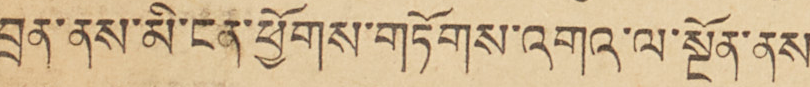བྲན་ནས་མི་ངན་ཕྱོགས་གཏོགས་འགའ་ལ་སྔོན་ནས་
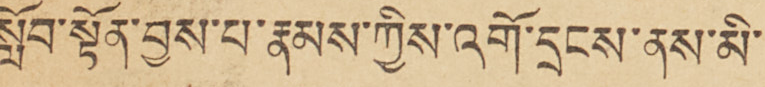སློབ་སྟོན་བྱས་པ་རྣམས་ཀྱིས་འགོ་དྲངས་ནས་མི་
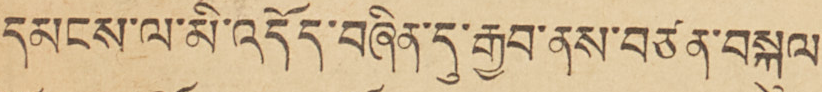དམངས་ལ་མི་འདོད་བཞིན་དུ་རྒྱབ་ནས་བཙན་བསྐུལ་
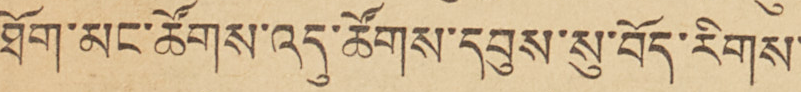ཐོག་མང་ཚོགས་འདུ་ཚོགས་དབུས་སུ་བོད་རིགས་
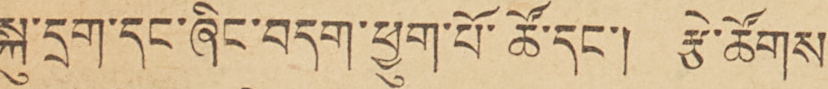སྐུ་དྲག་དང་ཞིང་བདག་ཕྱུག་པོ་ཚོ་དང། རྩེ་ཚོགས་
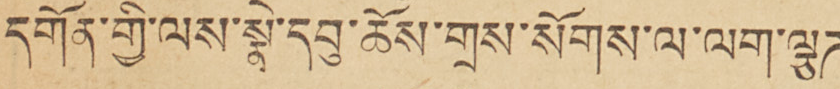དགོན་གྱི་ལས་སྣེ་དབུ་ཆོས་གྲས་སོགས་ལ་ལག་ལྕཊ་
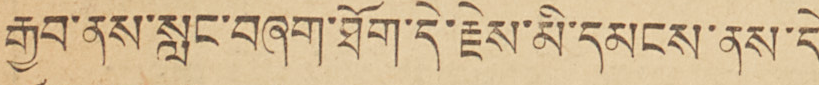རྒྱབ་ནས་སླང་བཞག་ཐོག་དེ་རྗེས་མི་དམངས་ནས་དེ་
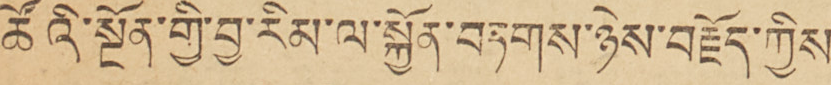ཚོའི་སྔོན་གྱི་བྱ་རིམ་ལ་སྐྱོན་བཏགས་ཉེས་བརྗོད་ཀྱིས་
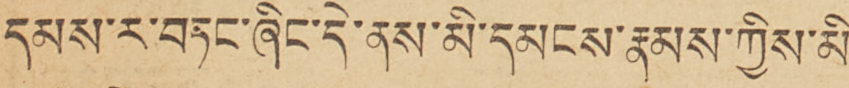དམས་ར་བཏང་ཞིང་དེ་ནས་མི་དམངས་རྣམས་ཀྱིས་མི་
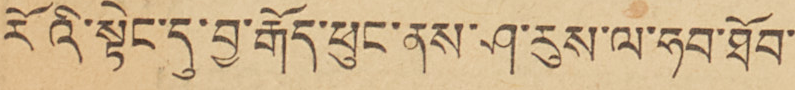རོའི་སྟེང་དུ་བྱ་རྒོད་ཕུང་ནས་ཤ་རུས་ལ་ཧབ་ཐོབ་
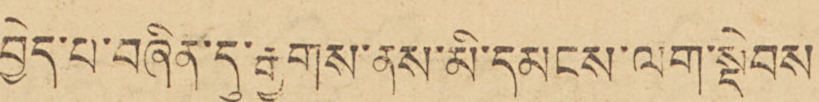བྱེད་པ་བཞིན་དུ་རྒྱུགས་ནས་མི་དམངས་ལག་སྡེབས་
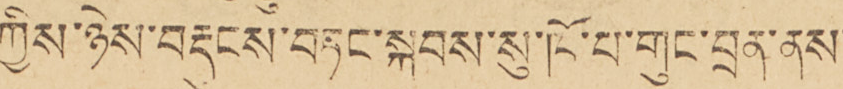ཀྱིས་ཉེས་བརྡུངས་བཏང་སྐབས་སུ་ཁོ་པ་གུང་བྲན་ནས་
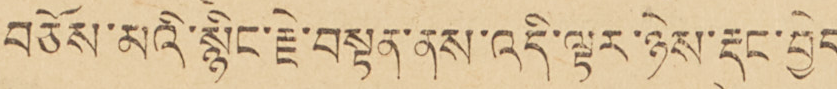བཅོས་མའི་སྙིང་རྗེ་བསྟན་ནས་འདི་ལྟར་ཉེས་རྡུང་བྱེད་
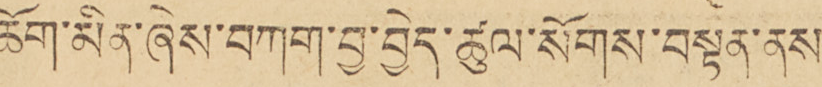ཆོག་མིན་ཞེས་བཀག་བྱ་བྱེད་ཚུལ་སོགས་བསྟན་ནས་
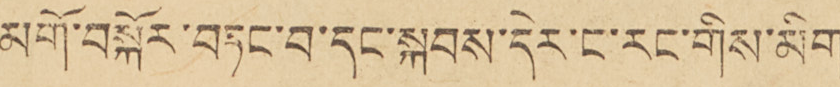མགོ་བསྐོར་བཏང་བ་དང་སྐབས་དེར་ང་རང་གིས་མིག་
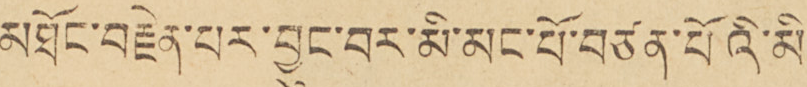མཐོང་བརྗེན་པར་བྱུང་བར་མི་མང་པོ་བཙན་པོའི་མི་
